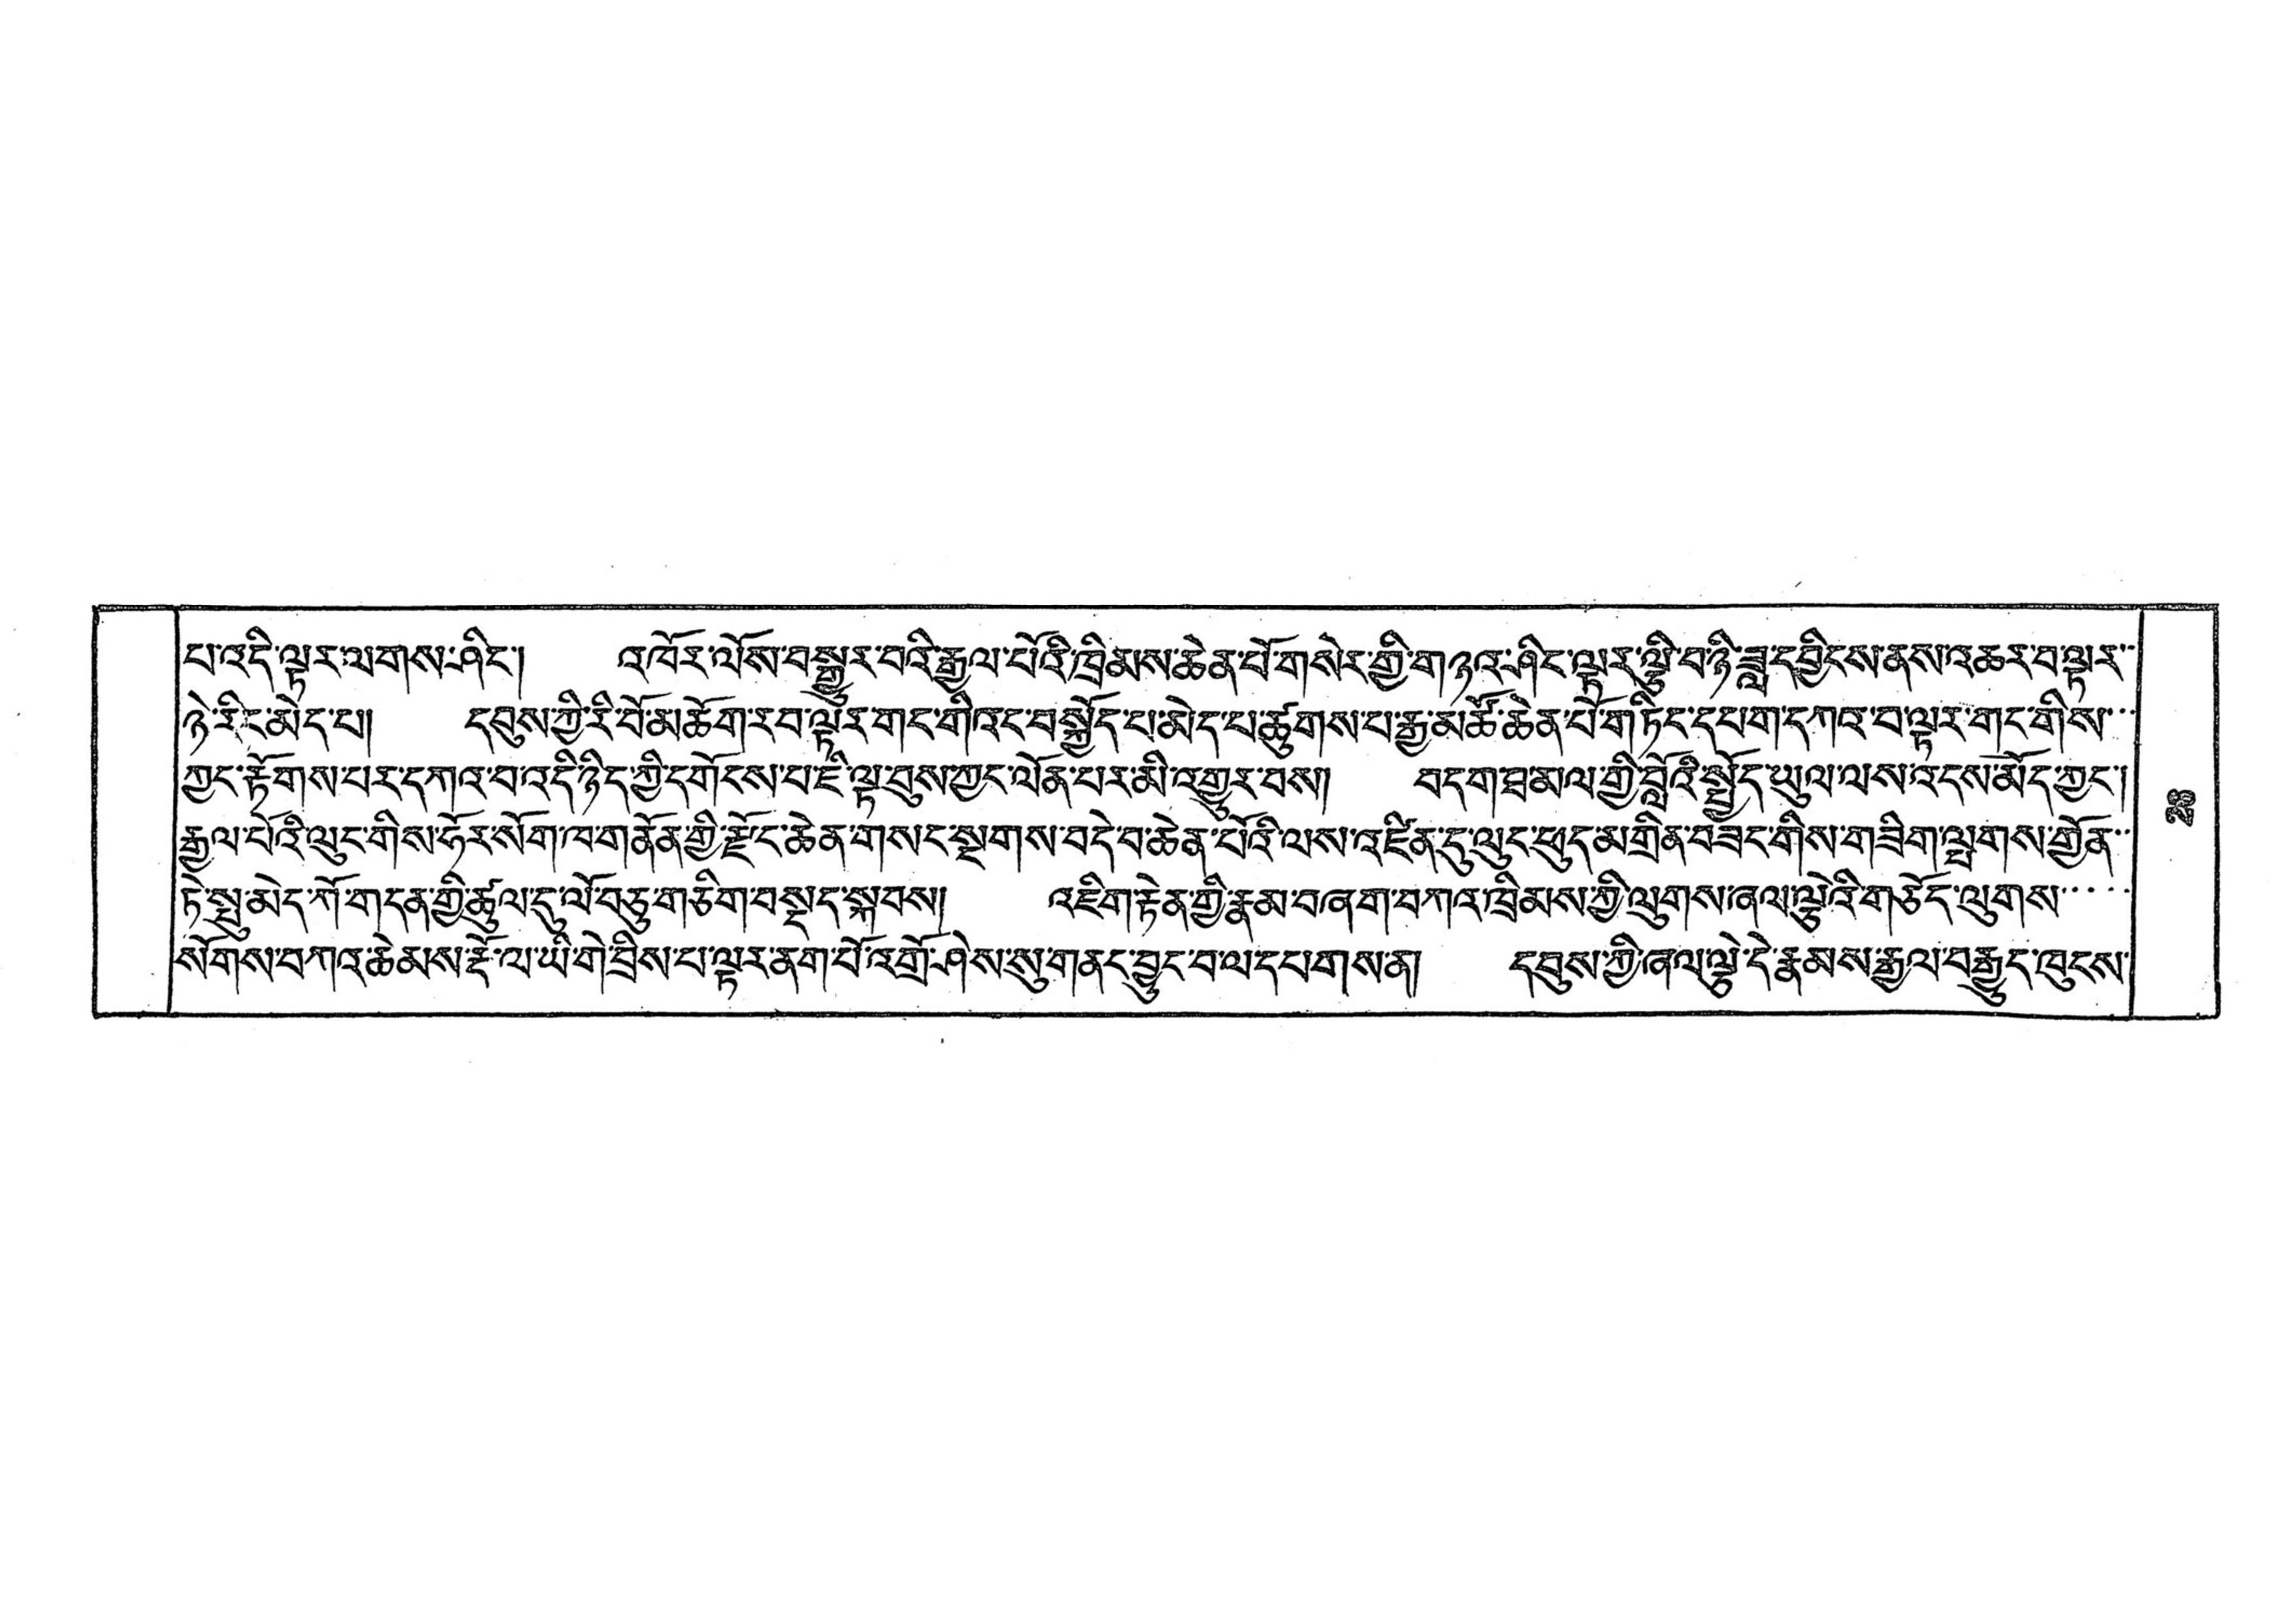པ་འདི་ལྟར་ལགས་ཤིང་། འཁོར་ལོས་བསྒྱུར་བའི་རྒྱལ་པོའི་ཁྲིམས་ཆེན་པོ་གསེར་གྱི་གཉའ་ཤིང་ལྟར་ལྕི་བ་ཉི་ཟླ་དབྱིངས་ནས་འཆར་བ་ལྟར་་
ཉེ་རིང་མེད་པ། དབུས་ཀྱི་རི་བོ་མཆོག་རབ་ལྟར་གང་གིའང་བསྐྱོད་པ་མེད་པ་ཚུགས་པ་རྒྱ་མཚོ་ཆེན་པོ་གཏིང་དཔག་དཀའ་བ་ལྟར་གང་གིས་་་
ཀྱང་རྟོགས་པར་དཀའ་བ་འདི་ཉིད་ཀྱི་དགོངས་པ་ཇི་ལྟ་བུས་ཀྱང་ལོན་པར་མི་འགྱུར་བས། བདག་ཐ་མལ་གྱི་བློའི་སྤྱོད་ཡུལ་ལས་འདས་མོད་ཀྱང་།
རྒྱལ་པོའི་ལུང་གིས་ཧོར་སོག་ཁ་་གནོན་གྱི་རྫོང་ཆེན་གསར་སྔགས་བདེ་བ་ཆེན་པོའི་ལས་འཛིན་དུ་ལུང་ཕུད་མགྲིན་བཟང་གིས་གཟིག་ལྤགས་གྱོན་་
ཏེ་སྤུ་མེད་ཀོ་གདན་གྱི་ཚུལ་དུ་ལོ་བཅུ་གཅིག་བསྡད་སྐབས། འཇིག་རྟེན་གྱི་རྣམ་བཞག་བཀའ་ཁྲིམས་ཀྱི་ལུགས་ཞལ་ལྕེའི་གཅོད་ལུགས་་་་
སོགས་བཀའ་ཆེམས་རྡོ་ལ་ཡི་གེ་བྲིས་པ་ལྟར་ནག་པོ་འགྲོ་ཤེས་སུ་གནང་བྱུང་བ་ལ་དཔགས་ན། དབུས་ཀྱི་ཞལ་ལྕེ་དེ་རྣམས་རྒྱལ་བརྒྱུད་ཁུངས་
